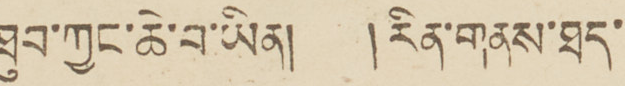ཐུབ་ཀྱང་ཆེ་བ་ཡིན། །རིན་གནས་ཐད་
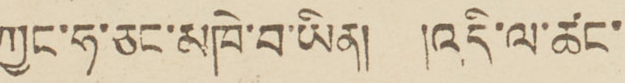ཀྱང་ཧ་ཅང་མཁེ་བ་ཡིན། །འདི་ལ་ཚང་
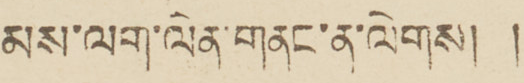མས་ལག་ལེན་གནང་ན་ལེགས། །
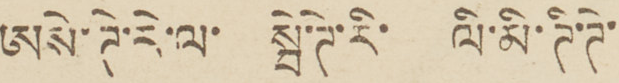ཨསེ་ཊེ་རེ་ལ་ སྦེ་ཊེ་རི་ ལི་མི་ཊི་ཊི་
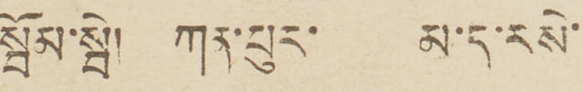སྦོམ་སྦེ། ཀན་པུར་ མ་ད་རསེ་
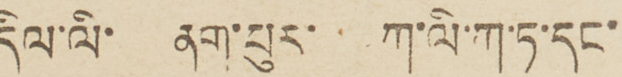དིལ་ལི ནག་པུར་ ཀ་ལི་ཀ་ཏ་དང་
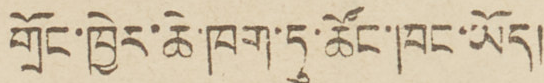གྲོང་ཁྱེར་ཆེ་ཁག་ཏུ་ཚོང་ཁང་ཡོད།
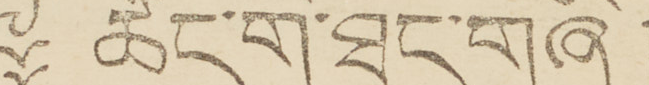༈ ཚོང་གི་ཐང་གཞི།
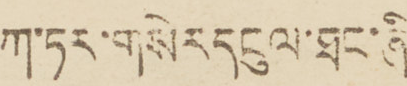ཀ་ཏར་གསེར་དངུལ་ཞི།
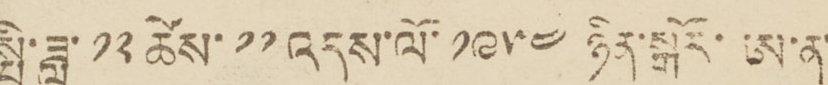སྤྱི་ཟླ་ ༡༢ ཚེས་ ༡༡ འདས་ལོ་ ༡༩༥༤ ཉིན་སྒོར་ཨ་ན་
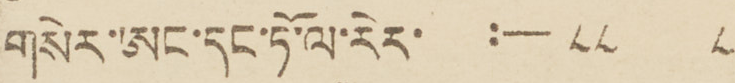གསེར་ཨང་དང་ཏོ་ལ་རེར་ :—༥༥ ༨
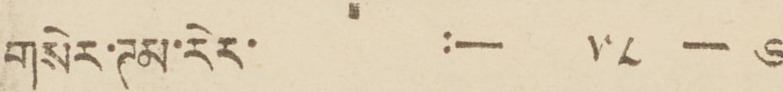གསེར་ཊམ་རེར་ :— ༥༨ - ༦
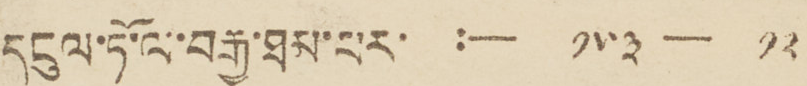དངུལ་ཏོ་ལ་བརྒྱ་ཐམ་པར་ :— ༡༥༣ - ༡༢
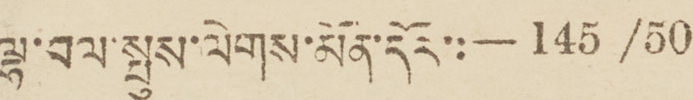ལྷ་བལ་སྤུས་ལེགས་མོན་དོར་:—143 /50
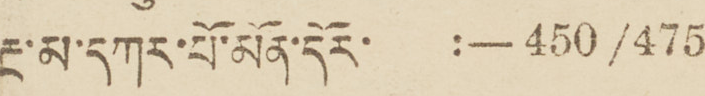རྔ་མ་དཀར་པོ་མོན་དོར་ :—450 /475
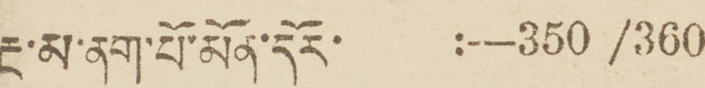རྔ་མ་ནག་པོ་མོན་དོར་ :—350 /360
